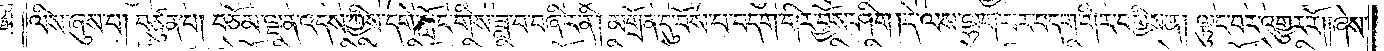ལིས་ཞུས་པ། བཙུན་པ། བཅོམ་ལྡན་འདས་ཀྱིས་དགེ་སློང་གིས་ཟླ་བ་བཞིར་ནི། མགྲོན་དུ་བོས་པ་བདག་གིར་བྱོས་ཤིག །དེ་ལས་ལྷག་པར་བདག་གིར་བགྱིས་ན། ལྟུང་བར་འགྱུར་རོ། །ཞེས་
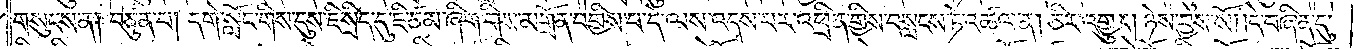གསུངས་ན། བཙུན་པ། དགེ་སློང་གིས་དུས་ཇི་སྲིད་དུ་ཇི་ཙམ་ཞིག་གིས་མགྲོན་བགྱིས་པ་དེ་ལས་འདས་པར་འཕྲིན་གྱིས་བསླངས་ཏེ་འཚལ་ན། ཅིར་འགྱུར། ཉེས་བྱས་སོ། །དེ་བཞིན་དུ་
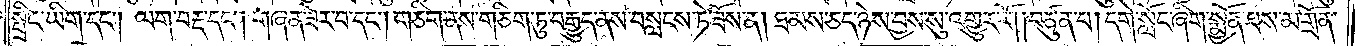སྤྲིང་ཡིག་དང༌། ལག་བརྡ་དང༌། གཞན་ཟེར་བ་དང༌། གཅིག་ནས་གཅིག་ཏུ་བརྒྱུད་ནས་བསླངས་ཏེ་ཟོས་ན། ཐམས་ཅད་ཉེས་བྱས་སུ་འགྱུར་རོ། །བཙུན་པ། དགེ་སློང་ཞིག་སྨྱོན་པས་མགྲོན་
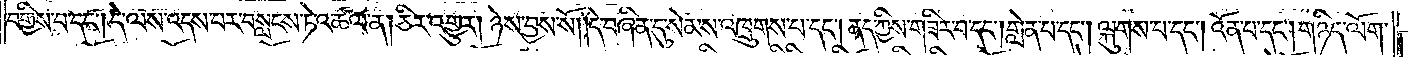བགྱིས་པ་དང༌། དེ་ལས་འདས་པ་བསླངས་ཏེ་འཚལ་ན། ཅིར་འགྱུར། ཉེས་བྱས་སོ། །དེ་བཞིན་དུ་སེམས་འཁྲུགས་པ་དང༌། ནད་ཀྱིས་གཟིར་བ་དང༌། གླེན་པ་དང༌། ལྐུགས་པ་དང༌། འོན་པ་དང༌། གཉིད་ལོག་
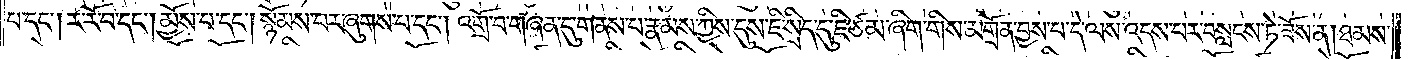པ་དང༌། ར་རོ་བ་དང༌། མྱོས་པ་དང༌། སྙོམས་པར་ཞུགས་པ་དང༌། འགྲོ་བ་གཞན་དུ་གནས་པ་རྣམས་ཀྱིས་དུས་ཇི་སྲིད་དུ་ཇི་ཙམ་ཞིག་གིས་མགྲོན་བྱས་པ་དེ་ལས་འདས་པར་བསླངས་ཏེ་ཟོས་ན། ཐམས་
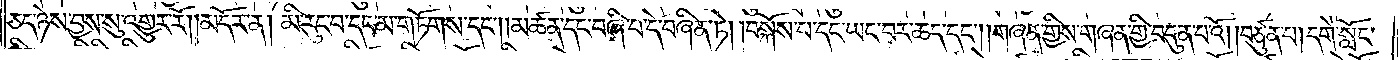ཅད་ཉེས་བྱས་སུ་འགྱུར་རོ། །མདོར་ན། མི་རུང་བ་དང་མ་གཏོགས་དང༌། །མཚན་དང་བཞི་པ་དེ་བཞིན་ཏེ། །བསྐོས་པ་དང་ཡང་བར་ཆད་དང༌། །གཞན་གྱིས་གཞན་གྱི་བདུན་པའོ། །བཙུན་པ། དགེ་སློང་
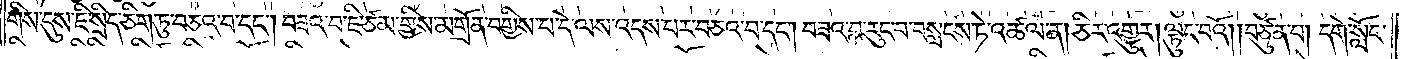གིས་དུས་ཇི་སྲིད་ཅིག་ཏུ་བཅའ་བ་དང༌། བཟའ་བ་ཇི་ཙམ་གྱིས་མགྲོན་བགྱིས་པ་དེ་ལས་འདས་པར་བཅའ་བ་དང༌། བཟའ་བ་རུང་བ་བསླངས་ཏེ་འཚལ་ན། ཅིར་འགྱུར། ལྟུང་བའོ། །བཙུན་པ། དགེ་སློང་
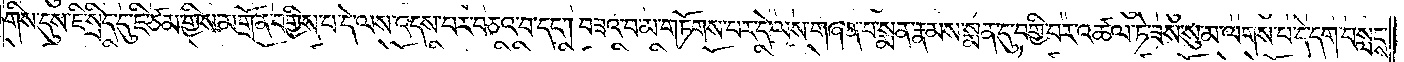གིས་དུས་ཇི་སྲིད་དུ་ཇི་ཙམ་གྱིས་མགྲོན་བགྱིས་པ་དེ་ལས་འདས་པར་བཅའ་བ་དང༌། བཟའ་བ་མ་གཏོགས་པར་དེ་ལས་གཞན་པ་སྨན་རྣམས་སྨན་དུ་བགྱི་བར་འཚལ་ཏེ་ཟས་སུ་མ་ལགས་པ་དེ་དག་བསླངས་
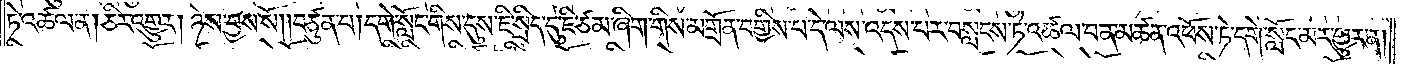ཏེ་འཚལ་ན། ཅིར་འགྱུར། ཉེས་བྱས་སོ། །བཙུན་པ། དགེ་སློང་གིས་དུས་ཇི་སྲིད་དུ་ཇི་ཙམ་ཞིག་གིས་མགྲོན་བགྱིས་པ་དེ་ལས་འདས་པར་བསླངས་ཏེ་འཚལ་བ་ན་མཚན་འཕོས་ཏེ་དགེ་སློང་མར་གྱུར་ན།
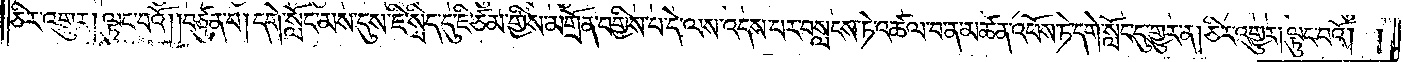ཅིར་འགྱུར། ལྟུང་བའོ། །བཙུན་པ། དགེ་སློང་མས་དུས་ཇི་སྲིད་དུ་ཇི་ཙམ་གྱིས་མགྲོན་བགྱིས་པ་དེ་ལས་འདས་པར་བསླངས་ཏེ་འཚལ་བ་ན་མཚན་འཕོས་ཏེ་དགེ་སློང་དུ་གྱུར་ན། ཅིར་འགྱུར། ལྟུང་བའོ། །
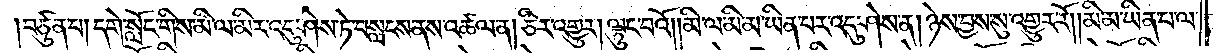།བཙུན་པ། དགེ་སློང་གིས་མི་ལ་མིར་འདུ་ཤེས་ཏེ་བསླངས་ནས་འཚལ་ན། ཅིར་འགྱུར། ལྟུང་བའོ། །མི་ལ་མི་མ་ཡིན་པར་འདུ་ཤེས་ན། ཉེས་བྱས་སུ་འགྱུར་རོ། །མི་མ་ཡིན་པ་ལ་
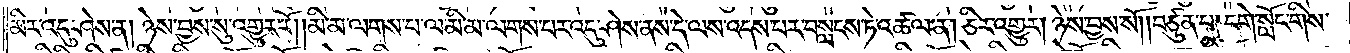མིར་འདུ་ཤེས་ན། ཉེས་བྱས་སུ་འགྱུར་རོ། །མི་མ་ལགས་པ་ལ་མི་མ་ལགས་པར་འདུ་ཤེས་ནས་དེ་ལས་འདས་པར་བསླངས་ཏེ་འཚལ་ན། ཅིར་འགྱུར། ཉེས་བྱས་སོ། །བཙུན་པ། དགེ་སློང་གིས་
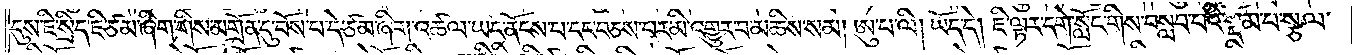དུས་ཇི་སྲིད་ཇི་ཙམ་ཞིག་གིས་མགྲོན་དུ་བོས་པ་དེ་ཙམ་ཞིག་འཚལ་ཡང་ནོངས་པ་དང་བཅས་པར་མི་འགྱུར་བ་མཆིས་སམ། ཨུ་པ་ལི། ཡོད་དེ། ཇི་ལྟར་དགེ་སློང་གིས་བསླབ་པའི་སྡོམ་པ་སྩལ་
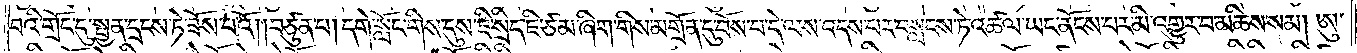བའི་གྲོང་དུ་སྤྱན་དྲངས་ཏེ་ཟོས་པའོ། །བཙུན་པ། དགེ་སློང་གིས་དུས་ཇི་སྲིད་ཇི་ཙམ་ཞིག་གིས་མགྲོན་དུ་བོས་པ་དེ་ལས་འདས་པར་བསླངས་ཏེ་འཚལ་ཡང་ནོངས་པར་མི་འགྱུར་བ་མཆིས་སམ། ཨུ་
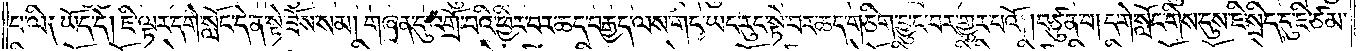པ་ལི༑ ཡོད་དེ། ཇི་ལྟར་དགེ་སློང་དེ་ན་སྟེ་ཟོས་སམ། གཞན་དུ་འགྲོ་བའི་ཕྱིར་བར་ཆད་བརྒྱད་ལས་གང་ཡང་རུང་སྟེ་བར་ཆད་གཅིག་བྱུང་བར་གྱུར་པའོ། །བཙུན་པ། དགེ་སློང་གིས་དུས་ཇི་སྲིད་དུ་ཇི་ཙམ་
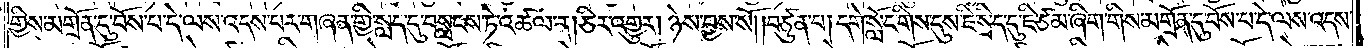གྱིས་མགྲོན་དུ་བོས་པ་དེ་ལས་འདས་པར་གཞན་གྱི་སླད་དུ་བསླངས་ཏེ་འཚལ་ན། ཅིར་འགྱུར། ཉེས་བྱས་སོ། །བཙུན་པ། དགེ་སློང་གིས་དུས་ཇི་སྲིད་དུ་ཇི་ཙམ་ཞིག་གིས་མགྲོན་དུ་བོས་པ་དེ་ལས་འདས་
